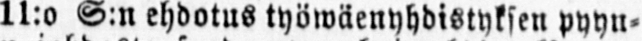1l:o S:n ehdotus työwäenyhdistyksen pyyn-
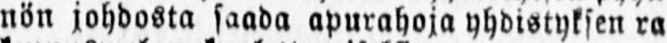nön johdosta saada apurahoja yhdistyksen ra-
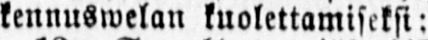kennuswelan kuolettamiseksi; :
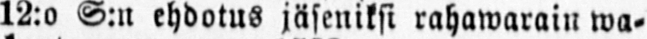12:o S:n ehdotus jäseniksi rahawarain waliolkuntaan wuonna 1892;
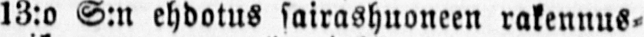13:o S:n ehdotus sairashuoneen rakennus-
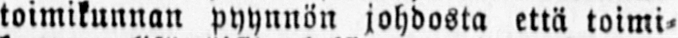toimikunnan pyynnön johdosta että toimi-
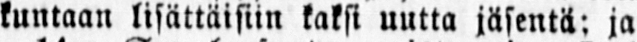kuntaan lisättäisiin kaksi uutta jäsentä: ja
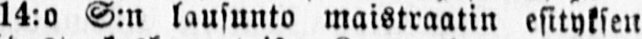14:o S:n lausunto maistraatin esityksen
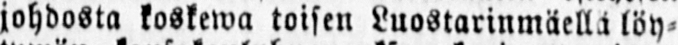johdosta koskewa toisen Luostarinmäellä löy-
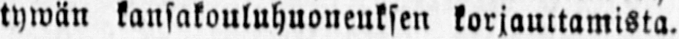tywän kansakouluhuoneuksen korjauttamista.
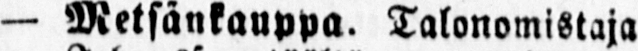— Metsänkauppa. Talonomistaja
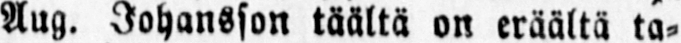Aug. Johansson täsiltä on eräältä ta-
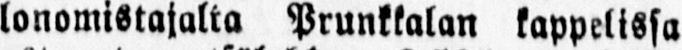lonomistajalta Prunkkalan kappelissa
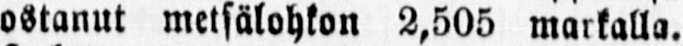ostanut metsälohkon 2,505 markalla.
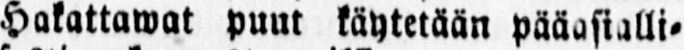Hakattawat puut käytetään pääasialli-
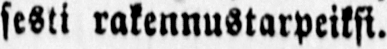sesti rakennustarpeiksi.
